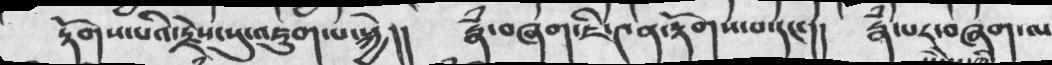རྟོགས་པའི་རྗེས་སུ་འཇུག་པ་སྐྱེ།།  རྣཾ་བཞག་ཇི་༤ན་རྟོགས་པ་དང་།། རྣཾ་པར་བཞག་ལ
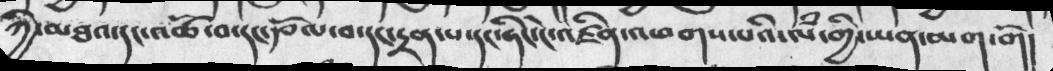ཀྱི་མཐའ་དང་འཚོ་བ་དང་རྩོལ་བ་དང་དྲན་པ་དང་ཏིང་ངེ་འཛིན་འཕགས་པའི་ལཾ་གྱི་ཡན་ལག་གོ།
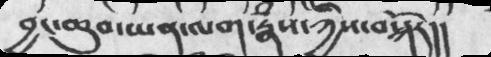བྱང་ཆུབ་ཡན་ལག་རྣཾས་ཀྱིས་བསྐོར།།
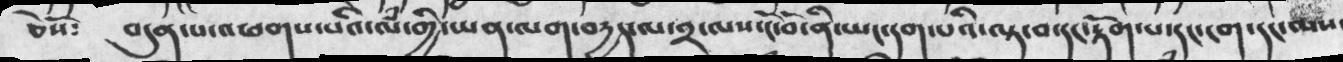ཅེསོ༴  བདུན་པ་འཕགས་པའི་ལཾ་གྱི་ཡན་ལག་བདྱད་ལ་༢་ལས་ངོ་བོ་ནི་ཡང་དག་པའི་ལྟ་བ་ངད་རྟོག་པ་དང་ངག་དང་ལས་
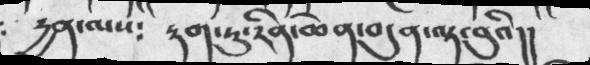དྱན་ལས༴  རྟག་ཏུ་རིན་ཆེན་བདུན་ལྟ་བུའི།།
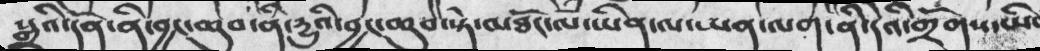སྒྲའི་དོན་ནི་བྱང་ཆུབ་ནི་དྱུའི་བྱང་ཆུབ་སྟེ་མཐོང་ལ་ཡིན་ལ་ཡན་ལག་ནི་དེའི་གྲོགས་ཡི
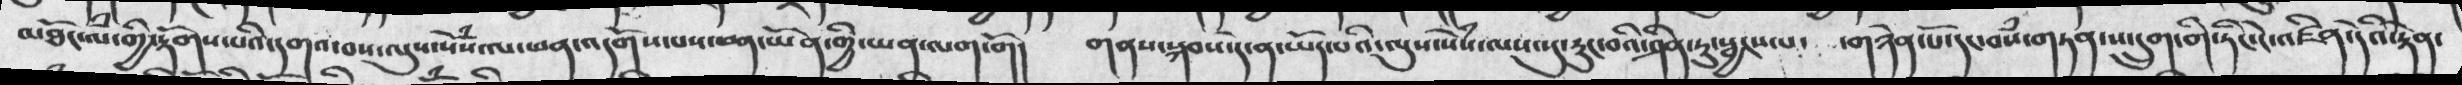མཐོང་ལཾ་གྱི་རྟོགས་པའི་དགའ་བས་ལུས་སེཾས་ལ་ཕན་འདོགས་པས་ཕན་ཡོན་གྱི་ཡན་ལག་གོ།  གནས་སྐབས་དེ་ན་ཡོད་པའི་ལུས་སེཾས་ལས་སུ་རུང་བའི་ཤིན་ཏུ་སྦྱངས་པ་  ་གཉེན་པོ་དང་བསཾ་གཏན་ས་དྲུག་གི་ཏིང་ངེ་འཛིན་དེའི་རྟེན་
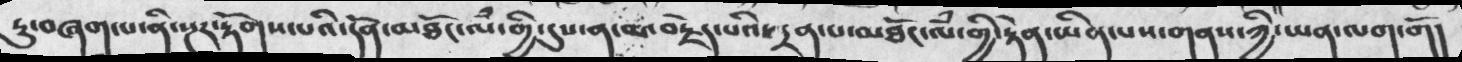ཏུ་བཞག་པ་ནི་སྔར་རྟོགས་པའི་དོན་མཐོང་ལཾ་གྱི་དུས་ན་མ་བརྗེད་པའི་དྲན་པ་མཐོང་ལཾ་གྱི་རྟེན་ཡིན་ལས་གནས་ཀྱི་ཡན་ལག་གོ།
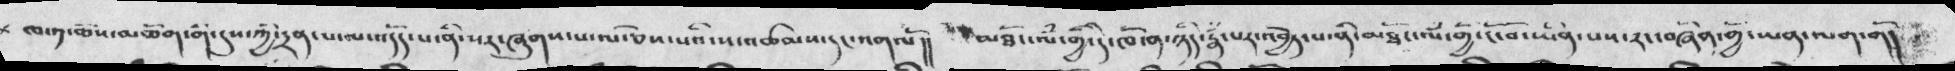ཁ་༡་ཆོས་མཆོག་གི་དུས་ཀྱི་དྲན་པ་ལ་འདོད་པ་ནི་སར་ཞུགས་པ་ལ་ཅེས་པའི་ས་འཚམས་དང་འགལོ།།  མཐོང་ལཾ་གྱི་དེ་ཁོ་ན་ཉིད་རྣཾ་པར་འབྱེད་པ་ནི་མཐོང་ལཾ་གྱི་ངོ་བོ་ཡིན་པས་རང་བཞིན་གྱི་ཡན་ལག་གོ།
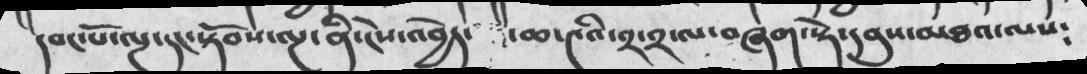དབང་པོ་ལྔ་དང་སྟོབས་ལྔ་ནི་ངེས་འབྱེད་  ་ཆ་༤འི་༢་༢་ལ་བཞག་སྟེ་དབུས་མཐའ་ལས༴
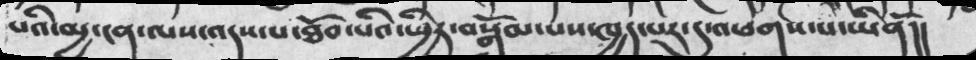པའི་མྱ་ངན་ལས་འདས་པ་ཐོབ་པའི་ཕྱིར་བསྒོམ་པས་ཁྱད་པར་དུ་འཕགས་པ་ཡིནོ།།
